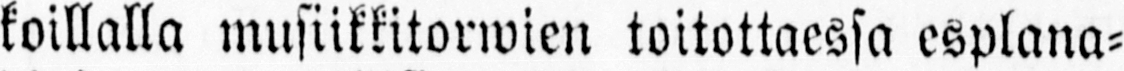koillalla musiikkitorwien toitottaessa esplana-
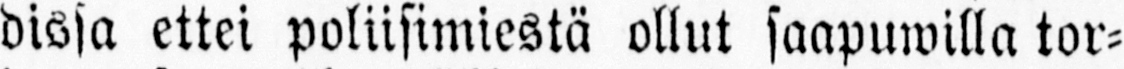dissa ettei poliisimiestä ollut saapuwilla tor-
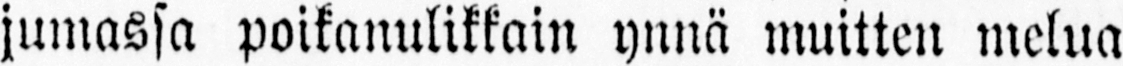jumassa poikanulikkain ynnä muitten melua
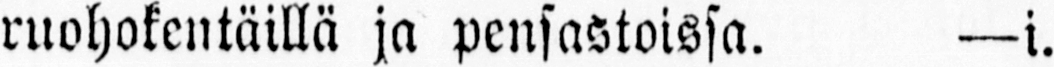ruohokentäillä ja pensastoissa. —i.
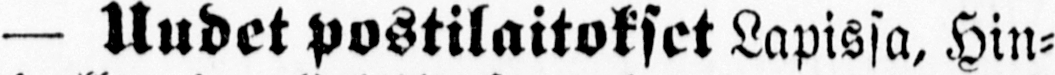— Uudet postilaitokset Lapissa, Hin-
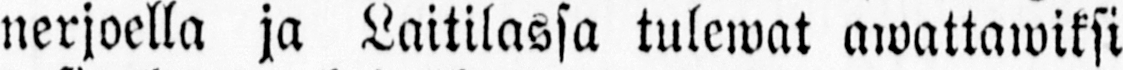nerjoella ja Laitilassa tulewat awattawiksi
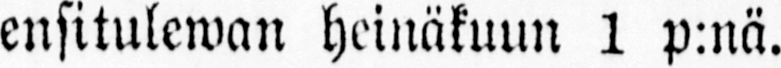ensitulewan heinäkuun 1 p:nä.
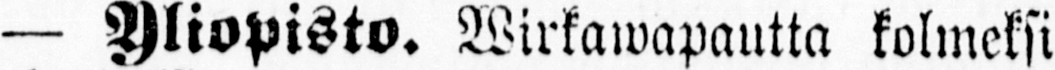— Yliopisto. Wirkawapautta kolmeksi
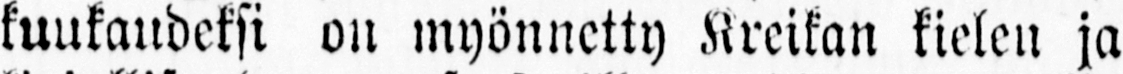kuukaudeksi on myönnetty Kreikan kielen ja
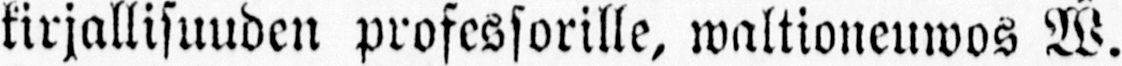kirjallisuuden professorille, waltioneuwos W.
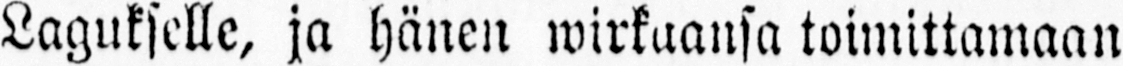Lagukselle, ja hänen wirkaansa toimittamaan
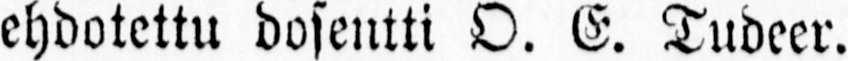ehdotettu dosentti O. E. Tudeer.
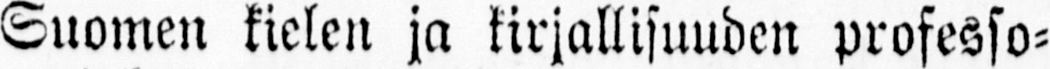Suomen kielen ja kirjallisuuden professo-
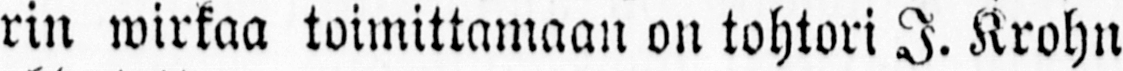rin wirkaa toimittamaan on tohtori I. Krohn
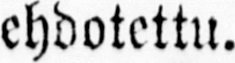ehdotettu.
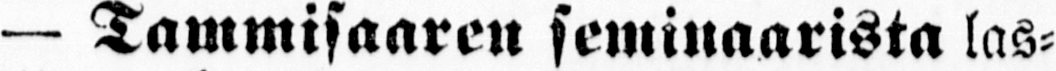— Tammisaaren seminaarista las-
